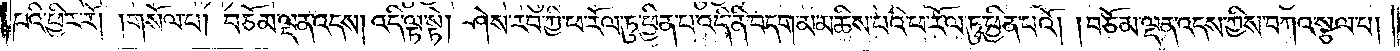པའི་ཕྱིར་རོ། །གསོལ་པ། བཅོམ་ལྡན་འདས། འདི་ལྟ་སྟེ། ཤེས་རབ་ཀྱི་ཕ་རོལ་ཏུ་ཕྱིན་པ་འདི་ནི་བདག་མ་མཆིས་པའི་ཕ་རོལ་ཏུ་ཕྱིན་པའོ། །བཅོམ་ལྡན་འདས་ཀྱིས་བཀའ་སྩལ་པ།
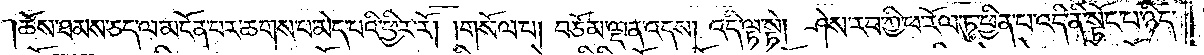ཆོས་ཐམས་ཅད་ལ་མངོན་པར་ཆགས་པ་མེད་པའི་ཕྱིར་རོ། །གསོལ་པ། བཅོམ་ལྡན་འདས། འདི་ལྟ་སྟེ། ཤེས་རབ་ཀྱི་ཕ་རོལ་ཏུ་ཕྱིན་པ་འདི་ནི་སྟོང་པ་ཉིད་
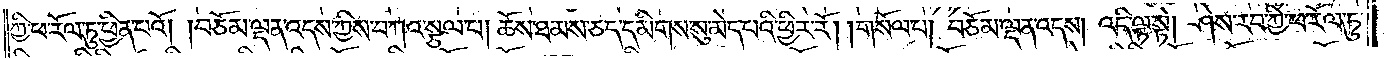ཀྱི་ཕ་རོལ་ཏུ་ཕྱིན་པའོ། །བཅོམ་ལྡན་འདས་ཀྱིས་བཀའ་སྩལ་པ། ཆོས་ཐམས་ཅད་དམིགས་སུ་མེད་པའི་ཕྱིར་རོ། །གསོལ་པ། བཅོམ་ལྡན་འདས། འདི་ལྟ་སྟེ། ཤེས་རབ་ཀྱི་ཕ་རོལ་ཏུ་
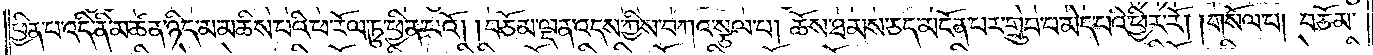ཕྱིན་པ་འདི་ནི་མཚན་ཉིད་མ་མཆིས་པའི་ཕ་རོལ་ཏུ་ཕྱིན་པའོ། །བཅོམ་ལྡན་འདས་ཀྱིས་བཀའ་སྩལ་པ། ཆོས་ཐམས་ཅད་མངོན་པར་གྲུབ་པ་མེད་པའི་ཕྱིར་རོ། །གསོལ་པ། བཅོམ་
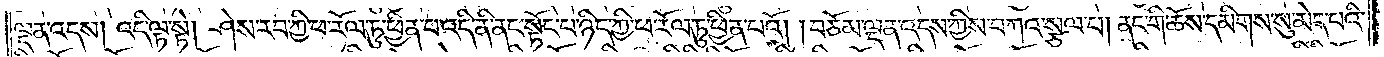ལྡན་འདས། འདི་ལྟ་སྟེ། ཤེས་རབ་ཀྱི་ཕ་རོལ་ཏུ་ཕྱིན་པ་འདི་ནི་ནང་སྟོང་པ་ཉིད་ཀྱི་ཕ་རོལ་ཏུ་ཕྱིན་པའོ། །བཅོམ་ལྡན་འདས་ཀྱིས་བཀའ་སྩལ་པ། ནང་གི་ཆོས་དམིགས་སུ་མེད་པའི་
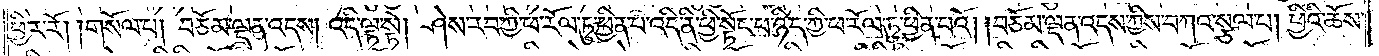ཕྱིར་རོ། །གསོལ་པ། བཅོམ་ལྡན་འདས། འདི་ལྟ་སྟེ། ཤེས་རབ་ཀྱི་ཕ་རོལ་ཏུ་ཕྱིན་པ་འདི་ནི་ཕྱི་སྟོང་པ་ཉིད་ཀྱི་ཕ་རོལ་ཏུ་ཕྱིན་པའོ། །བཅོམ་ལྡན་འདས་ཀྱིས་བཀའ་སྩལ་པ། ཕྱིའི་ཆོས་
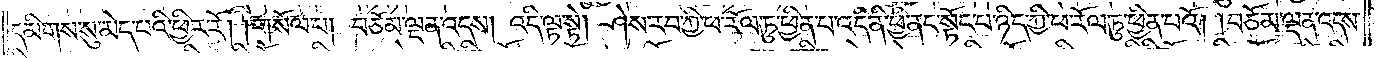དམིགས་སུ་མེད་པའི་ཕྱིར་རོ། །གསོལ་པ། བཅོམ་ལྡན་འདས། འདི་ལྟ་སྟེ། ཤེས་རབ་ཀྱི་ཕ་རོལ་ཏུ་ཕྱིན་པ་འདི་ནི་ཕྱི་ནང་སྟོང་པ་ཉིད་ཀྱི་ཕ་རོལ་ཏུ་ཕྱིན་པའོ། །བཅོམ་ལྡན་འདས་
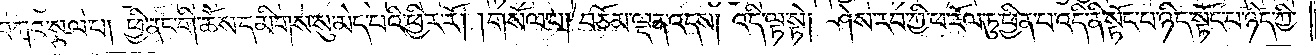ཀྱིས་བཀའ་སྩལ་པ། ཕྱི་ནང་གི་ཆོས་དམིགས་སུ་མེད་པའི་ཕྱིར་རོ། །གསོལ་པ། བཅོམ་ལྡན་འདས། འདི་ལྟ་སྟེ། ཤེས་རབ་ཀྱི་ཕ་རོལ་ཏུ་ཕྱིན་པ་འདི་ནི་སྟོང་པ་ཉིད་སྟོང་པ་ཉིད་ཀྱི་
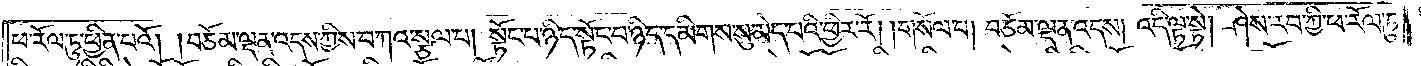ཕ་རོལ་ཏུ་ཕྱིན་པའོ། །བཅོམ་ལྡན་འདས་ཀྱིས་བཀའ་སྩལ་པ། སྟོང་པ་ཉིད་སྟོང་པ་ཉིད་དམིགས་སུ་མེད་པའི་ཕྱིར་རོ། །གསོལ་པ། བཅོམ་ལྡན་འདས། འདི་ལྟ་སྟེ། ཤེས་རབ་ཀྱི་ཕ་རོལ་ཏུ་
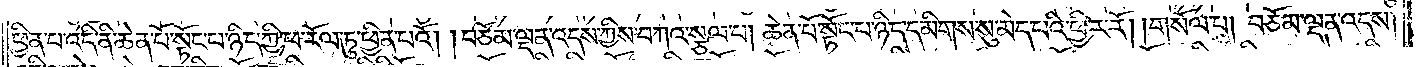ཕྱིན་པ་འདི་ནི་ཆེན་པོ་སྟོང་པ་ཉིད་ཀྱི་ཕ་རོལ་ཏུ་ཕྱིན་པའོ། །བཅོམ་ལྡན་འདས་ཀྱིས་བཀའ་སྩལ་པ། ཆེན་པོ་སྟོང་པ་ཉིད་དམིགས་སུ་མེད་པའི་ཕྱིར་རོ། །གསོལ་པ། བཅོམ་ལྡན་འདས།
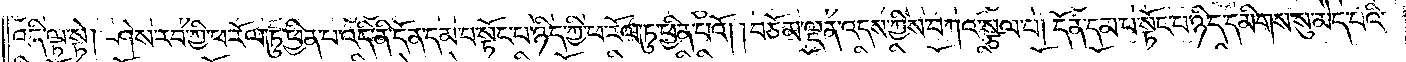འདི་ལྟ་སྟེ། ཤེས་རབ་ཀྱི་ཕ་རོལ་ཏུ་ཕྱིན་པ་འདི་ནི་དོན་དམ་པ་སྟོང་པ་ཉིད་ཀྱི་ཕ་རོལ་ཏུ་ཕྱིན་པའོ། །བཅོམ་ལྡན་འདས་ཀྱིས་བཀའ་སྩལ་པ། དོན་དམ་པ་སྟོང་པ་ཉིད་དམིགས་སུ་མེད་པའི་
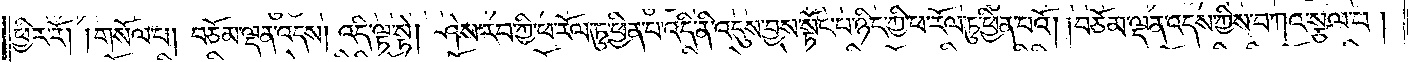ཕྱིར་རོ། །གསོལ་པ། བཅོམ་ལྡན་འདས། འདི་ལྟ་སྟེ། ཤེས་རབ་ཀྱི་ཕ་རོལ་ཏུ་ཕྱིན་པ་འདི་ནི་འདུས་བྱས་སྟོང་པ་ཉིད་ཀྱི་ཕ་རོལ་ཏུ་ཕྱིན་པའོ། །བཅོམ་ལྡན་འདས་ཀྱིས་བཀའ་སྩལ་པ།
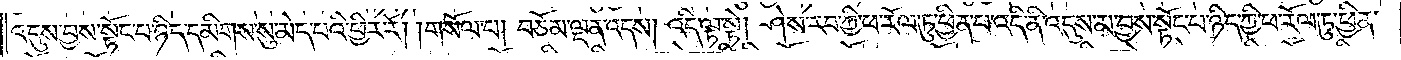འདུས་བྱས་སྟོང་པ་ཉིད་དམིགས་སུ་མེད་པའི་ཕྱིར་རོ། །གསོལ་པ། བཅོམ་ལྡན་འདས། འདི་ལྟ་སྟེ། ཤེས་རབ་ཀྱི་ཕ་རོལ་ཏུ་ཕྱིན་པ་འདི་ནི་འདུས་མ་བྱས་སྟོང་པ་ཉིད་ཀྱི་ཕ་རོལ་ཏུ་ཕྱིན་
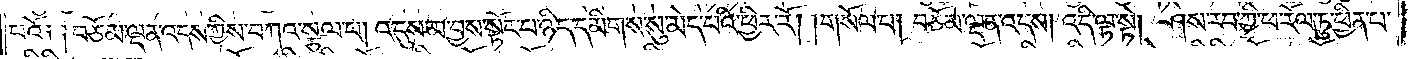པའོ༑ ༑བཅོམ་ལྡན་འདས་ཀྱིས་བཀའ་སྩལ་པ། འདུས་མ་བྱས་སྟོང་པ་ཉིད་དམིགས་སུ་མེད་པའི་ཕྱིར་རོ། །གསོལ་པ། བཅོམ་ལྡན་འདས། འདི་ལྟ་སྟེ། ཤེས་རབ་ཀྱི་ཕ་རོལ་ཏུ་ཕྱིན་པ་
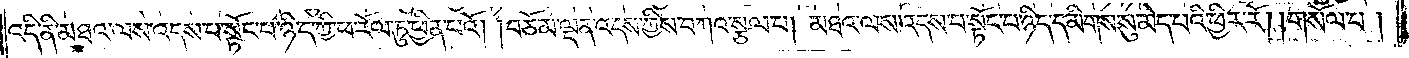འདི་ནི་མཐའ་ལས་འདས་པ་སྟོང་པ་ཉིད་ཀྱི་ཕ་རོལ་ཏུ་ཕྱིན་པའོ། །བཅོམ་ལྡན་འདས་ཀྱིས་བཀའ་སྩལ་པ། མཐའ་ལས་འདས་པ་སྟོང་པ་ཉིད་དམིགས་སུ་མེད་པའི་ཕྱིར་རོ། །གསོལ་པ།
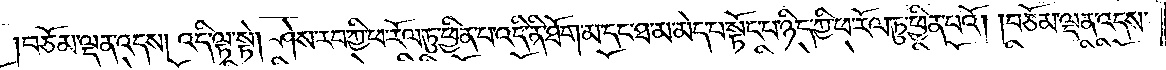བཅོམ་ལྡན་འདས། འདི་ལྟ་སྟེ། ཤེས་རབ་ཀྱི་ཕ་རོལ་ཏུ་ཕྱིན་པ་འདི་ནི་ཐོག་མ་དང་ཐ་མ་མེད་པ་སྟོང་པ་ཉིད་ཀྱི་ཕ་རོལ་ཏུ་ཕྱིན་པའོ། །བཅོམ་ལྡན་འདས་
